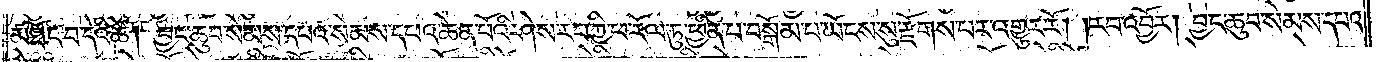མཐོང་བ་དེའི་ཚེ། བྱང་ཆུབ་སེམས་དཔའ་སེམས་དཔའ་ཆེན་པོའི་ཤེས་རབ་ཀྱི་ཕ་རོལ་ཏུ་ཕྱིན་པ་བསྒོམ་པ་ཡོངས་སུ་རྫོགས་པར་འགྱུར་རོ། །རབ་འབྱོར། བྱང་ཆུབ་སེམས་དཔའ་
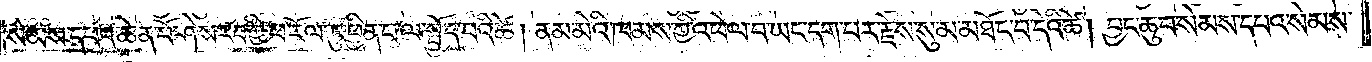སེམས་དཔའ་ཆེན་པོ་ཤེས་རབ་ཀྱི་ཕ་རོལ་ཏུ་ཕྱིན་པ་ལ་སྤྱོད་པའི་ཚེ། ནམ་མེའི་ཁམས་ཀྱི་འཕེལ་བ་ཡང་དག་པར་རྗེས་སུ་མ་མཐོང་བ་དེའི་ཚེ། བྱང་ཆུབ་སེམས་དཔའ་སེམས་
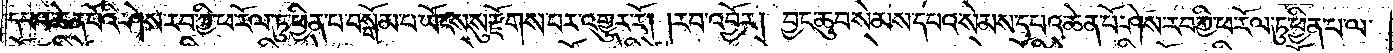དཔའ་ཆེན་པོའི་ཤེས་རབ་ཀྱི་ཕ་རོལ་ཏུ་ཕྱིན་པ་བསྒོམ་པ་ཡོངས་སུ་རྫོགས་པར་འགྱུར་རོ། །རབ་འབྱོར། བྱང་ཆུབ་སེམས་དཔའ་སེམས་དཔའ་ཆེན་པོ་ཤེས་རབ་ཀྱི་ཕ་རོལ་ཏུ་ཕྱིན་པ་ལ་
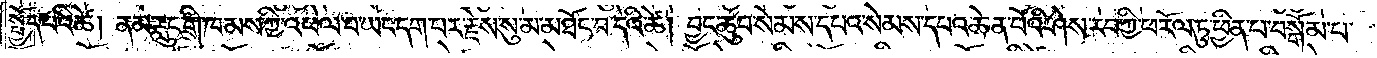སྤྱོད་པའི་ཚེ། ནམ་རླུང་གི་ཁམས་ཀྱི་འཕེལ་བ་ཡང་དག་པར་རྗེས་སུ་མ་མཐོང་བ་དེའི་ཚེ། བྱང་ཆུབ་སེམས་དཔའ་སེམས་དཔའ་ཆེན་པོའི་ཤེས་རབ་ཀྱི་ཕ་རོལ་ཏུ་ཕྱིན་པ་བསྒོམ་པ་
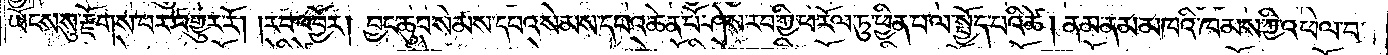ཡོངས་སུ་རྫོགས་པར་འགྱུར་རོ། །རབ་འབྱོར། བྱང་ཆུབ་སེམས་དཔའ་སེམས་དཔའ་ཆེན་པོ་ཤེས་རབ་ཀྱི་ཕ་རོལ་ཏུ་ཕྱིན་པ་ལ་སྤྱོད་པའི་ཚེ། ནམ་ནམ་མཁའི་ཁམས་ཀྱི་འཕེལ་བ་
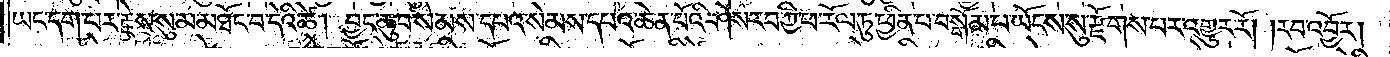ཡང་དག་པར་རྗེས་སུ་མ་མཐོང་བ་དེའི་ཚེ། བྱང་ཆུབ་སེམས་དཔའ་སེམས་དཔའ་ཆེན་པོའི་ཤེས་རབ་ཀྱི་ཕ་རོལ་ཏུ་ཕྱིན་པ་བསྒོམ་པ་ཡོངས་སུ་རྫོགས་པར་འགྱུར་རོ། །རབ་འབྱོར།
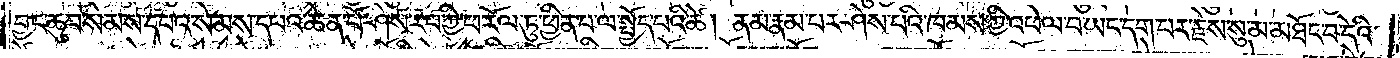བྱང་ཆུབ་སེམས་དཔའ་སེམས་དཔའ་ཆེན་པོ་ཤེས་རབ་ཀྱི་ཕ་རོལ་ཏུ་ཕྱིན་པ་ལ་སྤྱོད་པའི་ཚེ། ནམ་རྣམ་པར་ཤེས་པའི་ཁམས་ཀྱི་འཕེལ་བ་ཡང་དག་པར་རྗེས་སུ་མ་མཐོང་བ་དེའི་
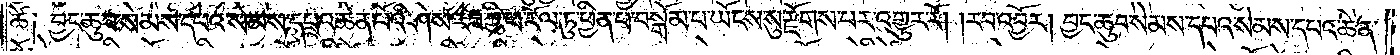ཚེ༑ བྱང་ཆུབ་སེམས་དཔའ་སེམས་དཔའ་ཆེན་པོའི་ཤེས་རབ་ཀྱི་ཕ་རོལ་ཏུ་ཕྱིན་པ་བསྒོམ་པ་ཡོངས་སུ་རྫོགས་པར་འགྱུར་རོ། །རབ་འབྱོར། བྱང་ཆུབ་སེམས་དཔའ་སེམས་དཔའ་ཆེན་
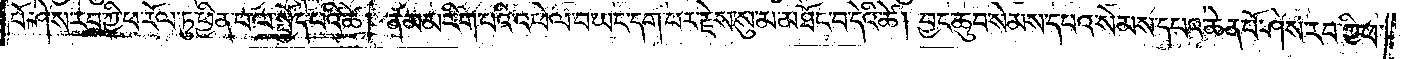པོ་ཤེས་རབ་ཀྱི་ཕ་རོལ་ཏུ་ཕྱིན་པ་ལ་སྤྱོད་པའི་ཚེ། ནམ་མ་རིག་པའི་འཕེལ་བ་ཡང་དག་པར་རྗེས་སུ་མ་མཐོང་བ་དེའི་ཚེ། བྱང་ཆུབ་སེམས་དཔའ་སེམས་དཔའ་ཆེན་པོའི་ཤེས་རབ་ཀྱི་ཕ་
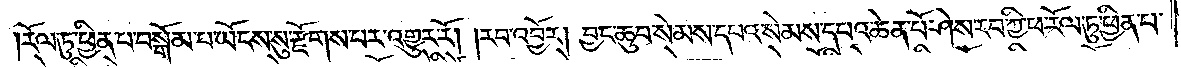རོལ་ཏུ་ཕྱིན་པ་བསྒོམ་པ་ཡོངས་སུ་རྫོགས་པར་འགྱུར་རོ། །རབ་འབྱོར། བྱང་ཆུབ་སེམས་དཔའ་སེམས་དཔའ་ཆེན་པོ་ཤེས་རབ་ཀྱི་ཕ་རོལ་ཏུ་ཕྱིན་པ་
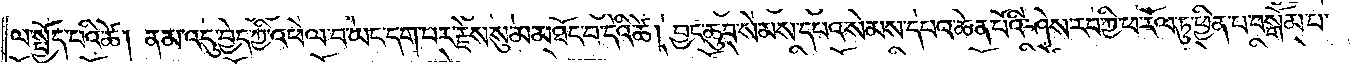ལ་སྤྱོད་པའི་ཚེ། ནམ་འདུ་བྱེད་ཀྱི་འཕེལ་བ་ཡང་དག་པར་རྗེས་སུ་མ་མཐོང་བ་དེའི་ཚེ། བྱང་ཆུབ་སེམས་དཔའ་སེམས་དཔའ་ཆེན་པོའི་ཤེས་རབ་ཀྱི་ཕ་རོལ་ཏུ་ཕྱིན་པ་བསྒོམ་པ་
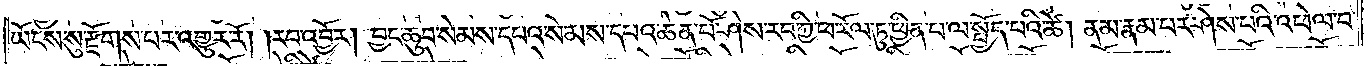ཡོངས་སུ་རྫོགས་པར་འགྱུར་རོ། །རབ་འབྱོར། བྱང་ཆུབ་སེམས་དཔའ་སེམས་དཔའ་ཆེན་པོ་ཤེས་རབ་ཀྱི་ཕ་རོལ་ཏུ་ཕྱིན་པ་ལ་སྤྱོད་པའི་ཚེ། ནམ་རྣམ་པར་ཤེས་པའི་འཕེལ་བ་
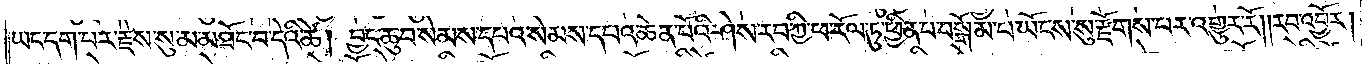ཡང་དག་པར་རྗེས་སུ་མ་མཐོང་བ་དེའི་ཚེ། བྱང་ཆུབ་སེམས་དཔའ་སེམས་དཔའ་ཆེན་པོའི་ཤེས་རབ་ཀྱི་ཕ་རོལ་ཏུ་ཕྱིན་པ་བསྒོམ་པ་ཡོངས་སུ་རྫོགས་པར་འགྱུར་རོ། །རབ་འབྱོར།
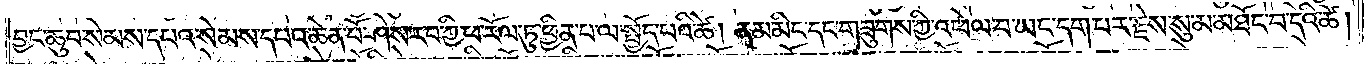བྱང་ཆུབ་སེམས་དཔའ་སེམས་དཔའ་ཆེན་པོ་ཤེས་རབ་ཀྱི་ཕ་རོལ་ཏུ་ཕྱིན་པ་ལ་སྤྱོད་པའི་ཚེ། ནམ་མིང་དང་གཟུགས་ཀྱི་འཕེལ་བ་ཡང་དག་པར་རྗེས་སུ་མ་མཐོང་བ་དེའི་ཚེ།
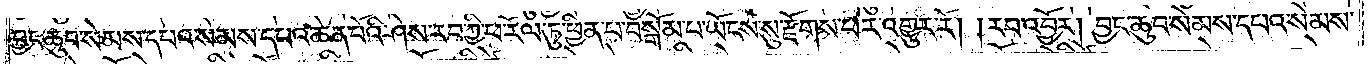བྱང་ཆུབ་སེམས་དཔའ་སེམས་དཔའ་ཆེན་པོའི་ཤེས་རབ་ཀྱི་ཕ་རོལ་ཏུ་ཕྱིན་པ་བསྒོམ་པ་ཡོངས་སུ་རྫོགས་པར་འགྱུར་རོ། །རབ་འབྱོར། བྱང་ཆུབ་སེམས་དཔའ་སེམས་
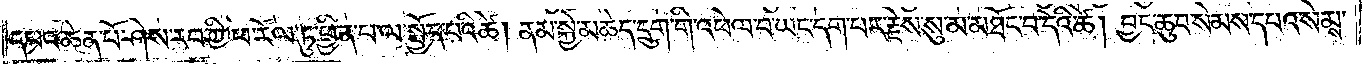དཔའ་ཆེན་པོ་ཤེས་རབ་ཀྱི་ཕ་རོལ་ཏུ་ཕྱིན་པ་ལ་སྤྱོད་པའི་ཚེ། ནམ་སྐྱེ་མཆེད་དྲུག་གི་འཕེལ་བ་ཡང་དག་པར་རྗེས་སུ་མ་མཐོང་བ་དེའི་ཚེ། བྱང་ཆུབ་སེམས་དཔའ་སེམས་
